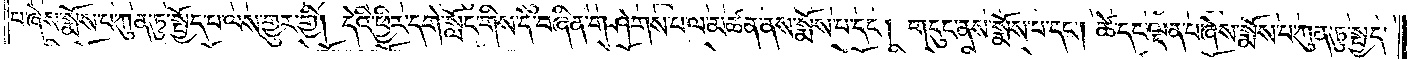པ་ཞེས་སྨོས་པ་ཀུན་ཏུ་སྤྱོད་པ་ལས་གྱུར་གྱི། དེའི་ཕྱིར་དགེ་སློང་གིས་དེ་བཞིན་གཤེགས་པ་ལ་མཚན་ནས་སྨོས་པ་དང༌། གདུང་ནས་སྨོས་པ་དང༌། ཚེ་དང་ལྡན་པ་ཞེས་སྨོས་པ་ཀུན་ཏུ་སྤྱད་
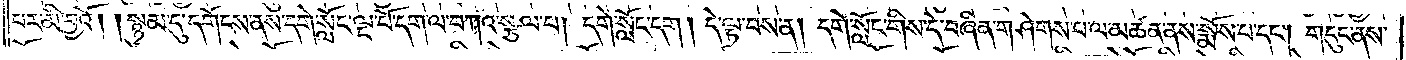པར་མི་བྱའོ། །སྙམ་དུ་དགོངས་ནས་དགེ་སློང་ལྔ་པོ་དག་ལ་བཀའ་སྩལ་པ། དགེ་སློང་དག། དེ་ལྟ་བས་ན། དགེ་སློང་གིས་དེ་བཞིན་གཤེགས་པ་ལ་མཚན་ནས་སྨོས་པ་དང༌། གདུང་ནས་
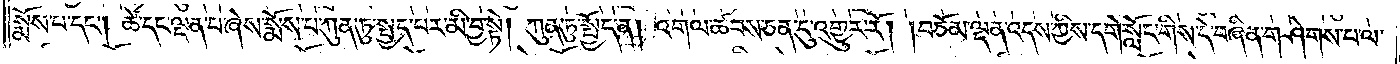སྨོས་པ་དང༌། ཚེ་དང་ལྡན་པ་ཞེས་སྨོས་པ་ཀུན་ཏུ་སྤྱད་པར་མི་བྱ་སྟེ། ཀུན་ཏུ་སྤྱོད་ན། འགལ་ཚབས་ཅན་དུ་འགྱུར་རོ། །བཅོམ་ལྡན་འདས་ཀྱིས་དགེ་སློང་གིས་དེ་བཞིན་གཤེགས་པ་ལ་
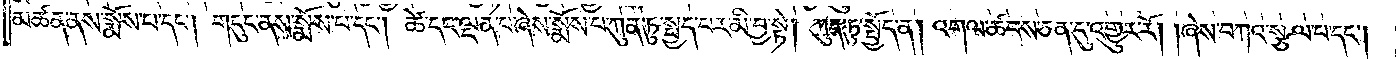མཚན་ནས་སྨོས་པ་དང༌། གདུང་ནས་སྨོས་པ་དང༌། ཚེ་དང་ལྡན་པ་ཞེས་སྨོས་པ་ཀུན་ཏུ་སྤྱད་པར་མི་བྱ་སྟེ། ཀུན་ཏུ་སྤྱོད་ན། འགལ་ཚབས་ཅན་དུ་འགྱུར་རོ། །ཞེས་བཀའ་སྩལ་པ་དང༌།
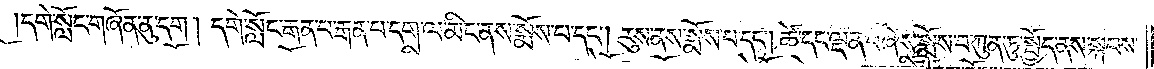དགེ་སློང་གཞོན་ནུ་དག །དགེ་སློང་རྒན་པ་རྒན་པ་དག་ལ་མིང་ནས་སྨོས་པ་དང༌། རུས་ནས་སྨོས་པ་དང༌། ཚེ་དང་ལྡན་པ་ཞེས་སྨོས་བ་ཀུན་ཏུ་སྤྱོད་ནས་སྐབས་
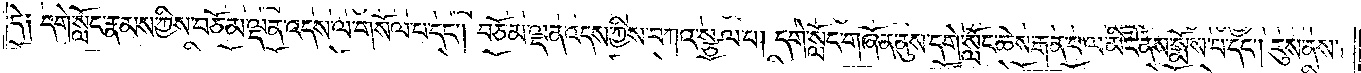དེ༑ དགེ་སློང་རྣམས་ཀྱིས་བཅོམ་ལྡན་འདས་ལ་གསོལ་པ་དང༌། བཅོམ་ལྡན་འདས་ཀྱིས་བཀའ་སྩལ་པ། དགེ་སློང་གཞོན་ནུས་དགེ་སློང་ཆེས་རྒན་པ་ལ་མིང་ནས་སྨོས་པ་དང༌། རུས་ནས་
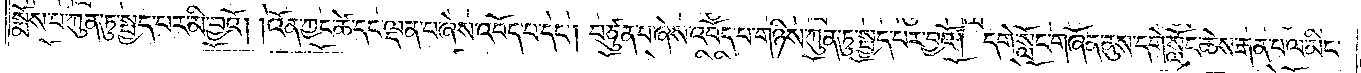སྨོས་པ་ཀུན་ཏུ་སྤྱད་པར་མི་བྱའོ། །འོན་ཀྱང་ཚེ་དང་ལྡན་པ་ཞེས་འབོད་པ་དང༌། བཙུན་པ་ཞེས་འབོད་པ་གཉིས་ཀུན་ཏུ་སྤྱད་པར་བྱའོ། དགེ་སློང་གཞོན་ནུས་དགེ་སློང་ཆེས་རྒན་པ་ལ་མིང་
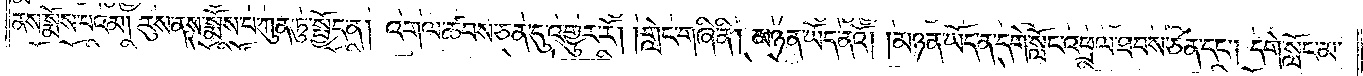ནས་སྨོས་པའམ། རུས་ནས་སྨོས་པ་ཀུན་ཏུ་སྤྱོད་ན། འགལ་ཚབས་ཅན་དུ་འགྱུར་རོ། །གླེང་གཞི་ནི། མཉན་ཡོད་ནའོ། །མཉན་ཡོད་ན་དགེ་སློང་འཕྲལ་ཐབས་ཅན་དང༌། དགེ་སློང་མ་
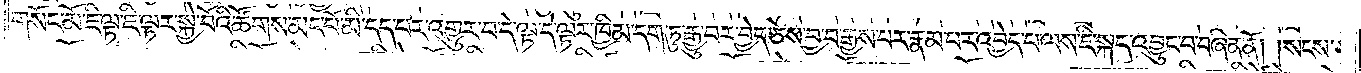གསོང་མོ་ཇི་ལྟ་ཇི་ལྟར་སྐྱེ་བོའི་ཚོགས་མང་པོ་མི་དད་པར་འགྱུར་བ་དེ་ལྟ་དེ་ལྟར་ཁྱིམ་དག་ཏུ་རྒྱུ་བར་བྱེད་ཅེས་བྱ་བ་རྒྱས་པར་རྣམ་པར་འབྱེད་པ་ལས་ཇི་སྐད་འབྱུང་བ་བཞིན་ནོ། །སངས་
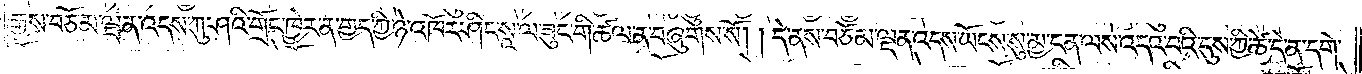རྒྱས་བཅོམ་ལྡན་འདས་ཀུ་ཤའི་གྲོང་ཁྱེར་ན་གྱད་ཀྱི་ཉེ་འཁོར་ཤིང་སཱ་ལ་ཟུང་གི་ཚལ་ན་བཞུགས་སོ། །དེ་ནས་བཅོམ་ལྡན་འདས་ཡོངས་སུ་མྱ་ངན་ལས་འདའ་བའི་དུས་ཀྱི་ཚེ་དེ་ན་དགེ་
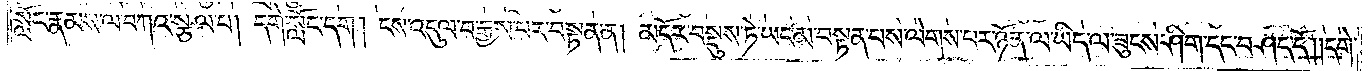སློང་རྣམས་ལ་བཀའ་སྩལ་པ། དགེ་སློང་དག །ངས་འདུལ་བ་རྒྱས་པར་བསྟན་ན། མདོར་བསྡུས་ཏེ་ཡང་མ་བསྟན་པས་ལེགས་པར་ཉོན་ལ་ཡིད་ལ་ཟུངས་ཤིག་དང་བཤད་དོ། །དགེ་
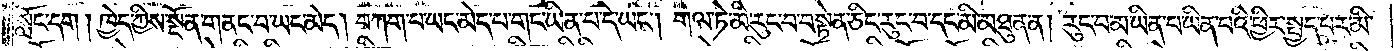སློང་དག། ཁྱེད་ཀྱིས་སྔོན་གནང་བ་ཡང་མེད། བཀག་པ་ཡང་མེད་པ་གང་ཡིན་པ་དེ་ཡང༌། གལ་ཏེ་མི་རུང་བ་བསྟེན་ཅིང་རུང་བ་དང་མི་མཐུན་ན། རུང་བ་མ་ཡིན་པ་ཡིན་པའི་ཕྱིར་སྤྱད་པར་མི་
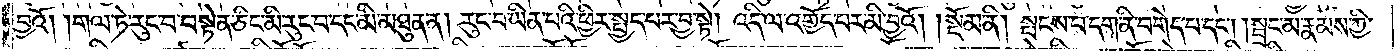བྱའོ། །གལ་ཏེ་རུང་བ་བསྟེན་ཅིང་མི་རུང་བ་དང་མི་མཐུན་ན། རུང་བ་ཡིན་པའི་ཕྱིར་སྤྱད་པར་བྱ་སྟེ། འདི་ལ་འགྱོད་པར་མི་བྱའོ།    །སྡོམ་ནི། སྤངས་པ་དག་ནི་བགེད་པ་དང༌། །སྦྲང་མ་རྣམས་ཀྱི་
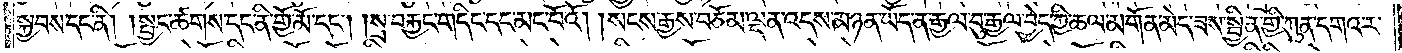སྐྱབས་དང་ནི། །སྤྱང་ཚགས་དང་ནི་གྱོ་མོ་དང༌། །སྲ་བརྐྱང་གདིང་དང་མང་པོའོ། །སངས་རྒྱས་བཅོམ་ལྡན་འདས་མཉན་ཡོད་ན་རྒྱལ་བུ་རྒྱལ་བྱེད་ཀྱི་ཆལ་མགོན་མེད་ཟས་སྦྱིན་གྱི་ཀུན་དགའ་ར་
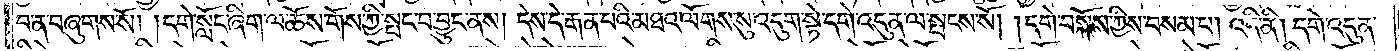བ་ན་བཞུགས་སོ། །དགེ་སློང་ཞིག་ལ་ཆོས་གོས་ཀྱི་སྤང་བ་བྱུང་ནས། དེས་དེ་རྒན་པའི་མཐའ་ལོགས་སུ་འདུག་སྟེ་དགེ་འདུན་ལ་སྤངས་སོ། །དགེ་བསྐོས་ཀྱིས་བསམ་པ། འདི་ནི། དགེ་འདུན་
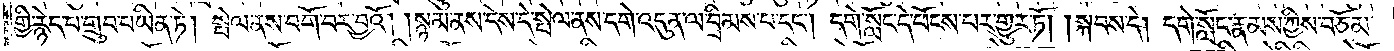གྱི་རྙེད་པ་གྲུབ་པ་ཡིན་ཏེ། སྤེལ་ནས་བགོ་བར་བྱའོ། །སྙམ་ནས་དེས་དེ་སྤེལ་ནས་དགེ་འདུན་ལ་བྲིམས་པ་དང༌། དགེ་སློང་དེ་ཕོངས་པར་གྱུར་ཏོ། །སྐབས་དེ། དགེ་སློང་རྣམས་ཀྱིས་བཅོམ་
